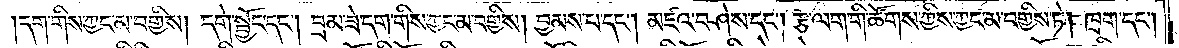དག་གིས་ཀྱང་མ་བགྱིས། དགེ་སྦྱོང་དང༌། བྲམ་ཟེ་དག་གིས་ཀྱང་མ་བགྱིས། བྱམས་པ་དང༌། མཛའ་བཤེས་དང༌། རྩ་ལག་གི་ཚོགས་ཀྱིས་ཀྱང་མ་བགྱིས་ཏེ། ཁྲག་དང༌།
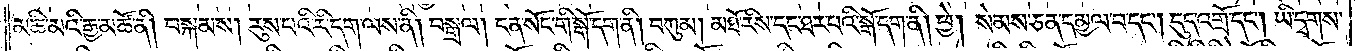མཆི་མའི་རྒྱ་མཚོ་ནི། བསྐམས། རུས་པའི་རི་དག་ལས་ནི། བསྒྲལ། ངན་སོང་གི་སྒོ་དག་ནི། བཀུམ། མཐོ་རིས་དང་ཐར་པའི་སྒོ་དག་ནི། ཕྱེ། སེམས་ཅན་དམྱལ་བ་དང༌། དུད་འགྲོ་དང༌། ཡི་དྭགས་
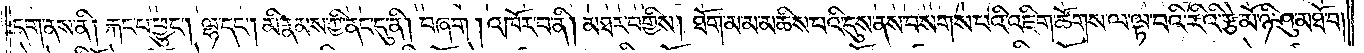དག་ནས་ནི། རྐང་པ་ཕྱུང༌། ལྷ་དང༌། མི་རྣམས་ཀྱི་ནང་དུ་ནི། བཞག །འཁོར་བ་ནི། མཐར་བགྱིས། ཐོག་མ་མ་མཆིས་པའི་དུས་ནས་བསགས་པའི་འཇིག་ཚོགས་ལ་ལྟ་བའི་རིའི་རྩེ་མོ་ཉི་ཤུ་མཐོ་བ།
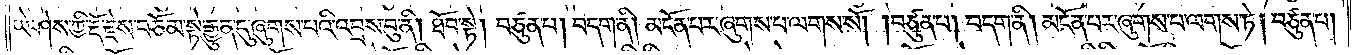ཡེ་ཤེས་ཀྱི་རྡོ་རྗེས་བཅོམ་སྟེ་རྒྱུན་དུ་ཞུགས་པའི་འབྲས་བུ་ནི། ཐོབ་སྟེ། བཙུན་པ། བདག་ནི། མངོན་པར་ཞུགས་པ་ལགས་སོ། །བཙུན་པ། བདག་ནི། མངོན་པར་ཞུགས་པ་ལགས་ཏེ། བཙུན་པ།
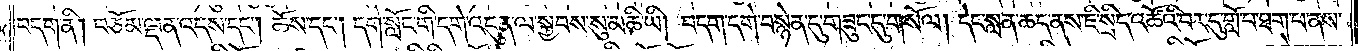བདག་ནི། བཅོམ་ལྡན་འདས་དང༌། ཆོས་དང༌། དགེ་སློང་གི་དགེ་འདུན་ལ་སྐྱབས་སུ་མཆི་ཡི། བདག་དགེ་བསྙེན་དུ་གཟུང་དུ་གསོལ། དེང་སླན་ཆད་ནས་ཇི་སྲིད་འཚོའི་བར་དུ་གློ་པ་ཐག་པ་ནས་
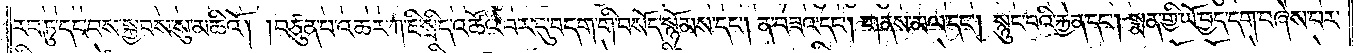རབ་ཏུ་དང་བས་སྐྱབས་སུ་མཆིའོ། །བཙུན་པ་འཆར་ཀ་ཇི་སྲིད་འཚོའི་བར་དུ་བདག་གི་བསོད་སྙོམས་དང༌། ན་བཟའ་དང༌། གནས་མལ་དང༌། སྙུང་བའི་རྐྱེན་དང༌། སྨན་གྱི་ཡོ་བྱད་དག་བཞེས་པར་
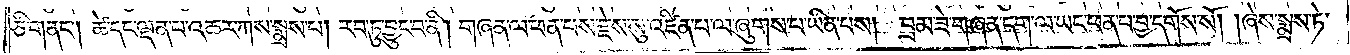ཅི་གནང༌། ཚེ་དང་ལྡན་པ་འཆར་ཀས་སྨྲས་པ། རབ་ཏུ་བྱུང་བ་ནི། གཞན་ལ་ཕན་པས་རྗེས་སུ་འཛིན་པ་ལ་ཞུགས་པ་ཡིན་པས། བྲམ་ཟེ་གཞན་དག་ལ་ཡང་ཕན་པ་བྱ་དགོས་སོ། །ཞེས་སྨྲས་ཏེ་
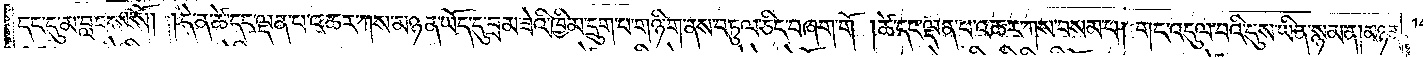དང་དུ་མ་བླངས་སོ། །དེ་ན་ཚེ་དང་ལྡན་པ་འཆར་ཀས་མཉན་ཡོད་དུ་བྲམ་ཟེའི་ཁྱིམ་དྲུག་པ་གཉི་ག་ནས་བཏུལ་ཅིང་བཞག་གོ །ཚེ་དང་ལྡན་པ་འཆར་ཀས་བསམ་པ། གང་འདུལ་བའི་དུས་ཡིན་སྙམ་ན། མཉན་
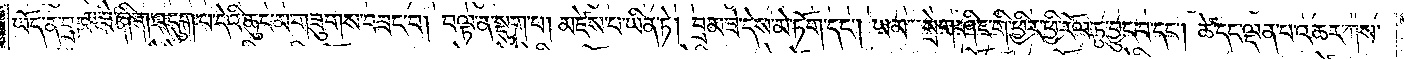ཡོད་ན་བྲམ་ཟེ་ཞིག་འདུག་པ་དེའི་ཆུང་མ་གཟུགས་བཟང་བ། བལྟ་ན་སྡུག་པ། མཛེས་པ་ཡིན་ཏེ། བྲམ་ཟེ་དེས་མེ་ཏོག་དང༌། ཡམ་སྲེག་ཤིང་གི་ཕྱིར་ཕྱི་རོལ་ཏུ་བྱུང་བ་དང༌། ཚེ་དང་ལྡན་པ་འཆར་ཀས་
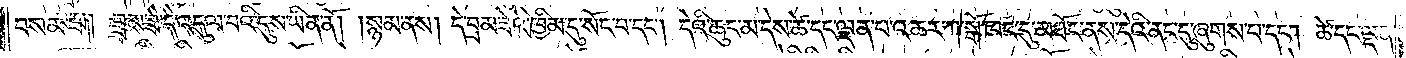བསམ་པ། བྲམ་ཟེ་དེ་འདུལ་བའི་དུས་ཡིན་ནོ། །སྙམ་ནས། དེ་བྲམ་ཟེའི་ཁྱིམ་དུ་སོང་བ་དང༌། དེའི་ཆུང་མ་དེས་ཚེ་དང་ལྡན་པ་འཆར་ཀ་སྒོ་ཁང་དུ་མཐོང་ནས་དེའི་ནང་དུ་ཞུགས་པ་དང༌། ཚེ་དང་ལྡན་
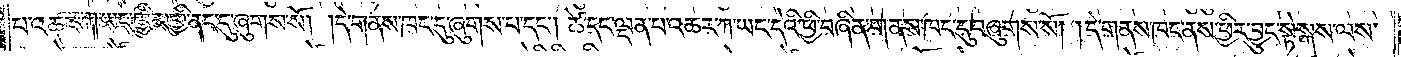པ་འཆར་ཀ་ཡང་ཁྱིམ་གྱི་ནང་དུ་ཞུགས་སོ། །དེ་གནས་ཁང་དུ་ཞུགས་པ་དང༌། ཚེ་དང་ལྡན་པ་འཆར་ཀ་ཡང་དེའི་ཕྱི་བཞིན་གནས་ཁང་དུ་བཞུགས་སོ། །དེ་གནས་ཁང་ནས་ཕྱིར་བྱུང་སྟེ་སྐས་ལས་
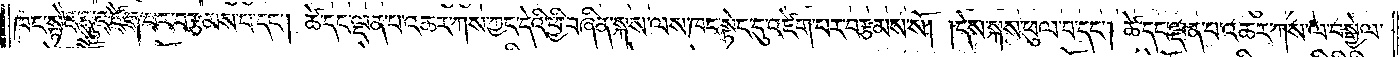ཁང་སྟེང་དུ་འཛེག་པར་བརྩམས་པ་དང༌། ཚེ་དང་ལྡན་པ་འཆར་ཀས་ཀྱང་དེའི་ཕྱི་བཞིན་སྐས་ལས་ཁང་སྟེང་དུ་འཛེག་པར་བརྩམས་སོ། །དེས་སྐས་ཕུལ་བ་དང༌། ཚེ་དང་ལྡན་པ་འཆར་ཀ་ས་ལ་བསྒྱེལ་
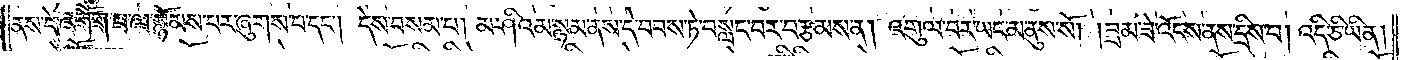ནས་དེ་འགོག་པ་ལ་སྙོམས་པར་ཞུགས་པ་དང༌། དེས་བསམ་པ། མ་ཤིའམ་སྙམ་ནས་དེ་བབས་ཏེ་བསླང་བར་བརྩམས་ནས། འགུལ་བར་ཡང་མ་ནུས་སོ། །བྲམ་ཟེ་འོངས་ནས་དྲིས་པ། འདི་ཅི་ཡིན།
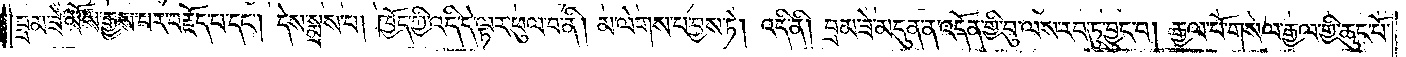བྲམ་ཟེ་མོས་རྒྱས་པར་བརྗོད་པ་དང༌། དེས་སྨྲས་པ། ཁྱོད་ཀྱི་འདི་དེ་ལྟར་ཕུལ་བ་ནི། མ་ལེགས་པ་བྱས་ཏེ། འདི་ནི། བྲམ་ཟེ་མདུན་ན་འདོན་གྱི་བུ་ལས་རབ་ཏུ་བྱུང་བ། རྒྱལ་པོ་གསལ་རྒྱལ་གྱི་ཆུང་པོ་
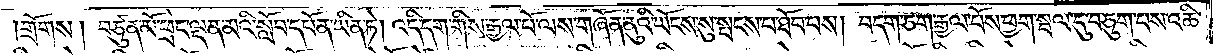གྲོགས། བཙུན་མོ་ཕྲེང་ལྡན་མའི་སློབ་དཔོན་ཡིན་ཏེ། འདི་དག་གིས་རྒྱལ་པོ་ལས་གཞོན་ནུའི་ཡོངས་སུ་སྤངས་པ་ཐོབ་པས། བདག་ཅག་རྒྱལ་པོས་ཕྱག་སྦལ་དུ་བཅུག་པས་འཆི་
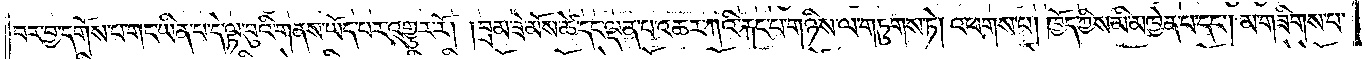བར་བྱ་དགོས་པ་གང་ཡིན་པ་དེ་ལྟ་བུའི་གནས་ཡོད་པར་འགྱུར་རོ། །བྲམ་ཟེ་མོས་ཚེ་དང་ལྡན་པ་འཆར་ཀའི་རྐང་པ་གཉིས་ལ་གཏུགས་ཏེ། འཕགས་པ། ཁྱོད་ཀྱིས་མི་མཁྱེན་པ་དང༌། མ་གཟིགས་པ་
